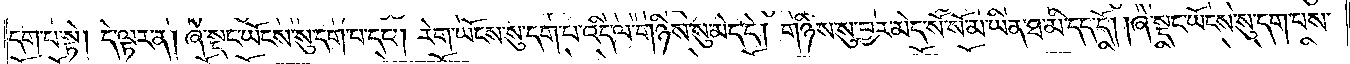དག་པ་སྟེ། དེ་ལྟར་ན། ཞེ་སྡང་ཡོངས་སུ་དག་པ་དང༌། རེག་ཡོངས་སུ་དག་པ་འདི་ལ་གཉིས་སུ་མེད་དེ། གཉིས་སུ་བྱར་མེད་སོ་སོ་མ་ཡིན་ཐ་མི་དད་དོ། །ཞེ་སྡང་ཡོངས་སུ་དག་པས་
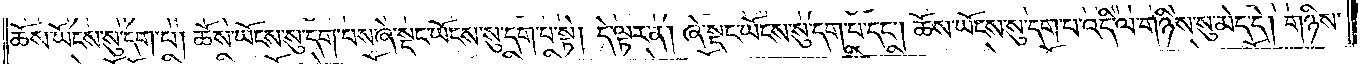ཆོས་ཡོངས་སུ་དག་པ། ཆོས་ཡོངས་སུ་དག་པས་ཞེ་སྡང་ཡོངས་སུ་དག་པ་སྟེ། དེ་ལྟར་ན། ཞེ་སྡང་ཡོངས་སུ་དག་པ་དང༌། ཆོས་ཡོངས་སུ་དག་པ་འདི་ལ་གཉིས་སུ་མེད་དེ། གཉིས་
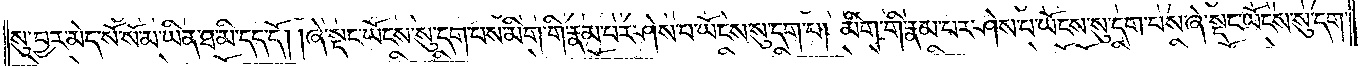སུ་བྱར་མེད་སོ་སོ་མ་ཡིན་ཐ་མི་དད་དོ། །ཞེ་སྡང་ཡོངས་སུ་དག་པས་མིག་གི་རྣམ་པར་ཤེས་པ་ཡོངས་སུ་དག་པ། མིག་གི་རྣམ་པར་ཤེས་པ་ཡོངས་སུ་དག་པས་ཞེ་སྡང་ཡོངས་སུ་དག་
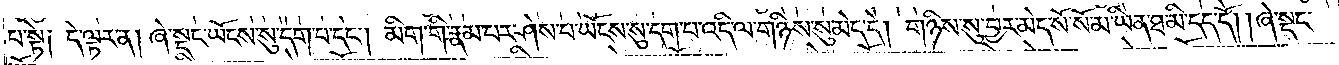པ་སྟེ༑ དེ་ལྟར་ན། ཞེ་སྡང་ཡོངས་སུ་དག་པ་དང༌། མིག་གི་རྣམ་པར་ཤེས་པ་ཡོངས་སུ་དག་པ་འདི་ལ་གཉིས་སུ་མེད་དེ། གཉིས་སུ་བྱར་མེད་སོ་སོ་མ་ཡིན་ཐ་མི་དད་དོ། །ཞེ་སྡང་
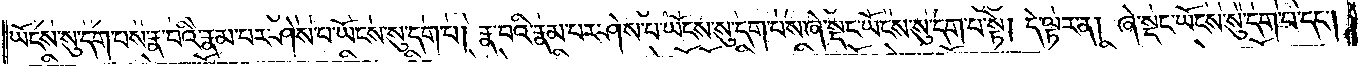ཡོངས་སུ་དག་པས་རྣ་བའི་རྣམ་པར་ཤེས་པ་ཡོངས་སུ་དག་པ། རྣ་བའི་རྣམ་པར་ཤེས་པ་ཡོངས་སུ་དག་པས་ཞེ་སྡང་ཡོངས་སུ་དག་པ་སྟེ། དེ་ལྟར་ན། ཞེ་སྡང་ཡོངས་སུ་དག་པ་དང༌།
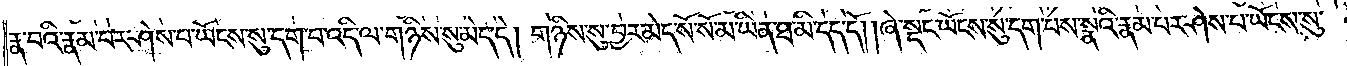རྣ་བའི་རྣམ་པར་ཤེས་པ་ཡོངས་སུ་དག་པ་འདི་ལ་གཉིས་སུ་མེད་དེ། གཉིས་སུ་བྱར་མེད་སོ་སོ་མ་ཡིན་ཐ་མི་དད་དོ། །ཞེ་སྡང་ཡོངས་སུ་དག་པས་སྣའི་རྣམ་པར་ཤེས་པ་ཡོངས་སུ་
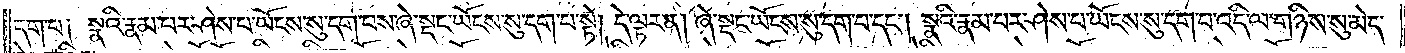དག་པ༑ སྣའི་རྣམ་པར་ཤེས་པ་ཡོངས་སུ་དག་པས་ཞེ་སྡང་ཡོངས་སུ་དག་པ་སྟེ། དེ་ལྟར་ན། ཞེ་སྡང་ཡོངས་སུ་དག་པ་དང༌། སྣའི་རྣམ་པར་ཤེས་པ་ཡོངས་སུ་དག་པ་འདི་ལ་གཉིས་སུ་མེད་
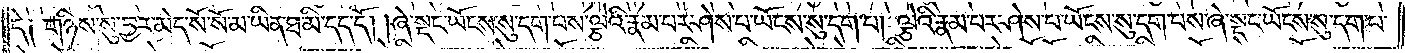དེ༑ གཉིས་སུ་བྱར་མེད་སོ་སོ་མ་ཡིན་ཐ་མི་དད་དོ། །ཞེ་སྡང་ཡོངས་སུ་དག་པས་ལྕེའི་རྣམ་པར་ཤེས་པ་ཡོངས་སུ་དག་པ། ལྕེའི་རྣམ་པར་ཤེས་པ་ཡོངས་སུ་དག་པས་ཞེ་སྡང་ཡོངས་སུ་དག་པ་
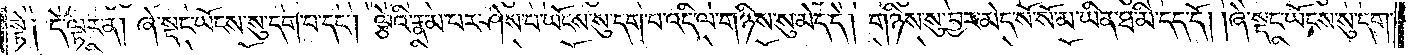སྟེ༑ དེ་ལྟར་ན། ཞེ་སྡང་ཡོངས་སུ་དག་པ་དང༌། ལྕེའི་རྣམ་པར་ཤེས་པ་ཡོངས་སུ་དག་པ་འདི་ལ་གཉིས་སུ་མེད་དེ། གཉིས་སུ་བྱར་མེད་སོ་སོ་མ་ཡིན་ཐ་མི་དད་དོ། །ཞེ་སྡང་ཡོངས་སུ་དག་
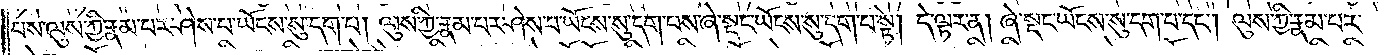པས་ལུས་ཀྱི་རྣམ་པར་ཤེས་པ་ཡོངས་སུ་དག་པ། ལུས་ཀྱི་རྣམ་པར་ཤེས་པ་ཡོངས་སུ་དག་པས་ཞེ་སྡང་ཡོངས་སུ་དག་པ་སྟེ། དེ་ལྟར་ན། ཞེ་སྡང་ཡོངས་སུ་དག་པ་དང༌། ལུས་ཀྱི་རྣམ་པར་
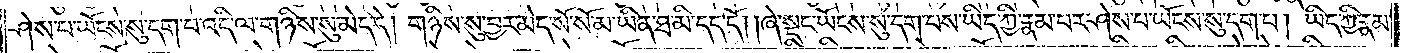ཤེས་པ་ཡོངས་སུ་དག་པ་འདི་ལ་གཉིས་སུ་མེད་དེ། གཉིས་སུ་བྱར་མེད་སོ་སོ་མ་ཡིན་ཐ་མི་དད་དོ། །ཞེ་སྡང་ཡོངས་སུ་དག་པས་ཡིད་ཀྱི་རྣམ་པར་ཤེས་པ་ཡོངས་སུ་དག་པ། ཡིད་ཀྱི་རྣམ་
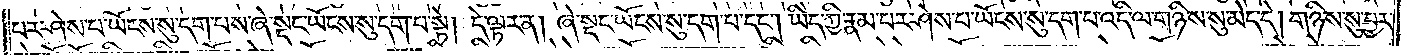པར་ཤེས་པ་ཡོངས་སུ་དག་པས་ཞེ་སྡང་ཡོངས་སུ་དག་པ་སྟེ། དེ་ལྟར་ན། ཞེ་སྡང་ཡོངས་སུ་དག་པ་དང༌། ཡིད་ཀྱི་རྣམ་པར་ཤེས་པ་ཡོངས་སུ་དག་པ་འདི་ལ་གཉིས་སུ་མེད་དེ། གཉིས་སུ་བྱར་
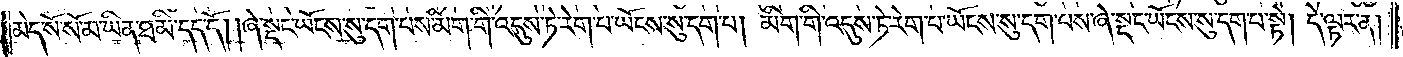མེད་སོ་སོ་མ་ཡིན་ཐ་མི་དད་དོ། །ཞེ་སྡང་ཡོངས་སུ་དག་པས་མིག་གི་འདུས་ཏེ་རེག་པ་ཡོངས་སུ་དག་པ། མིག་གི་འདུས་ཏེ་རེག་པ་ཡོངས་སུ་དག་པས་ཞེ་སྡང་ཡོངས་སུ་དག་པ་སྟེ། དེ་ལྟར་ན།
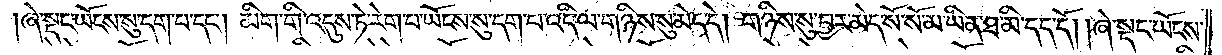ཞེ་སྡང་ཡོངས་སུ་དག་པ་དང༌། མིག་གི་འདུས་ཏེ་རེག་པ་ཡོངས་སུ་དག་པ་འདི་ལ་གཉིས་སུ་མེད་དེ། གཉིས་སུ་བྱར་མེད་སོ་སོ་མ་ཡིན་ཐ་མི་དད་དོ། །ཞེ་སྡང་ཡོངས་
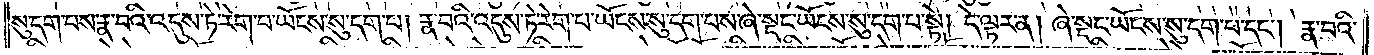སུ་དག་པས་རྣ་བའི་འདུས་ཏེ་རེག་པ་ཡོངས་སུ་དག་པ། རྣ་བའི་འདུས་ཏེ་རེག་པ་ཡོངས་སུ་དག་པས་ཞེ་སྡང་ཡོངས་སུ་དག་པ་སྟེ། དེ་ལྟར་ན། ཞེ་སྡང་ཡོངས་སུ་དག་པ་དང༌། རྣ་བའི་
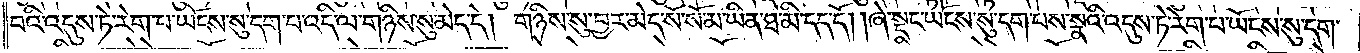བའི་འདུས་ཏེ་རེག་པ་ཡོངས་སུ་དག་པ་འདི་ལ་གཉིས་སུ་མེད་དེ། གཉིས་སུ་བྱར་མེད་སོ་སོ་མ་ཡིན་ཐ་མི་དད་དོ། །ཞེ་སྡང་ཡོངས་སུ་དག་པས་སྣའི་འདུས་ཏེ་རེག་པ་ཡོངས་སུ་དག་
